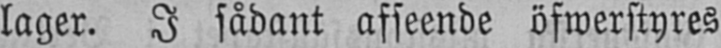lager. I sådant afseende öfwerstyres
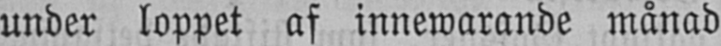under loppet af innewarande månad
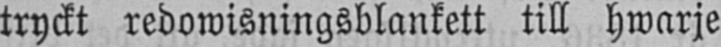tryckt redowisningsblankett till hwarje
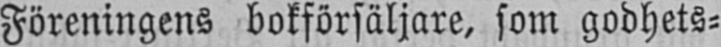Föreningens bokförsäljare, som godhets-
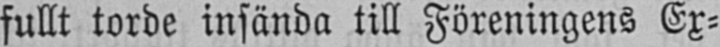fullt torde insända till Föreningens Ex-
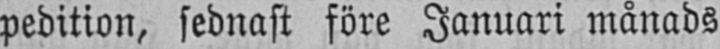pedition, sednast före Januari månads
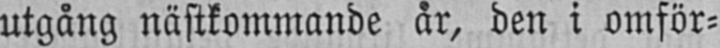utgång nästkommande år, den i omför-
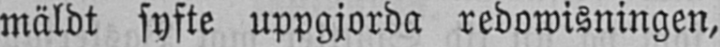mäldt syfte uppgjorda redowisningen,
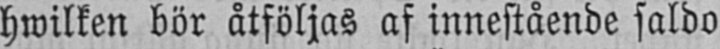hwilken bör åtföljas af innestående saldo
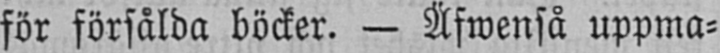för försålda böcker. — Äfwenså uppma-
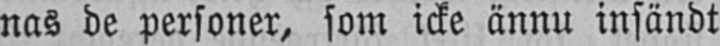nas de personer, som icke ännu insändt
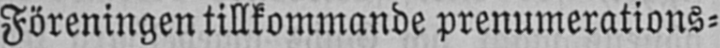Föreningen tillkommande prenumerations-
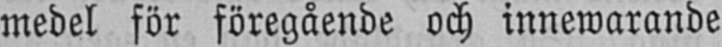medel för föregående och innewarande
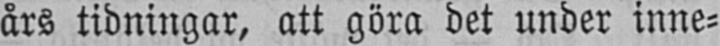års tidningar, att göra det under inne-
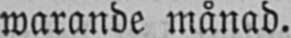warande månad.
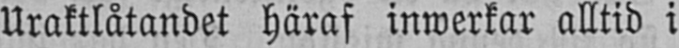Uraktlåtandet häraf inwerkar alltid i
